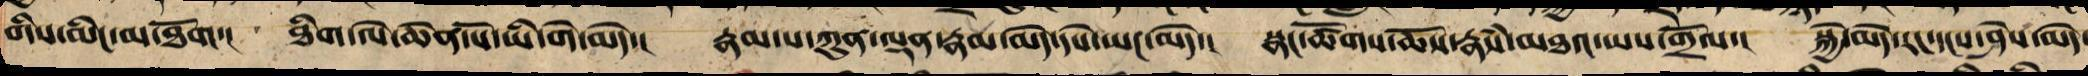གིས་མིང་མ་ཐོག་། ཐིག་ལེ་ཆེན་པོ་ཡི་གེ་མེད་། རྣམ་པ་ཀུན་ལྡན་རྣམ་མེད་དཔེ་ཡང་མེད་། སྣ་ཚོགས་ཆོས་རྣཾས་མཐའ་ཡས་གྲོལ་། སྐྱེ་མེད་རང་དངས་ཤེས་མེད་
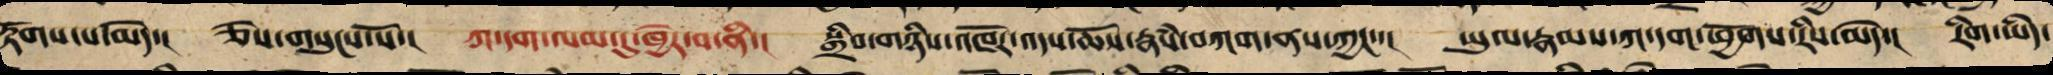རྟོགས་པ་མེད་། ཅེས་གསུངས་སོ་། ཀ་དག་ལམ་དུ་ཁྱེར་བ་ནི་། སྒྲིབ་གཉིས་འཁོར་འདས་ཆོས་རྣཾས་བཀག་ནས་ཀྱང་་། ཡུལ་རྣམས་ཀ་དག་ཕྱོགས་རིས་མེད་། རིག་ཡིད་
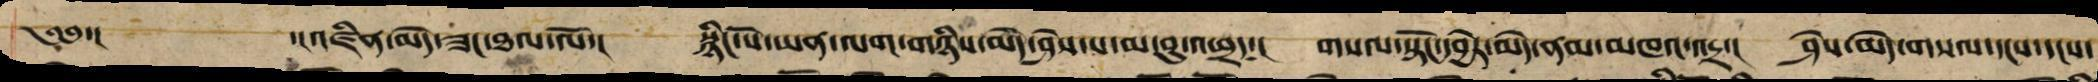༄༅་། ་།འཛིན་མེད་ཟང་ཐལ་ལོ་། སྙིང་པོ་ཡན་ལག་གཉིས་མེད་ཤེས་པ་མ་བུ་འཕྲད་། གསལ་སྟོང་དབྱེར་མེད་ནམ་མཁའ་འདྲ་། ཤེས་མེད་གསལ་དངས་དངས་
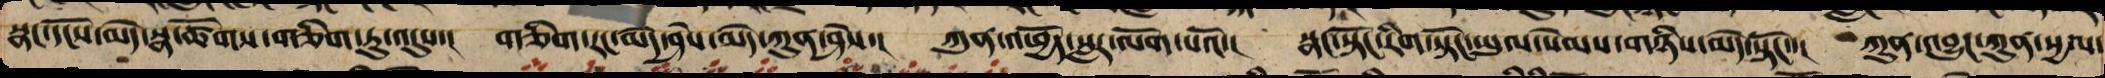སྣང་དངོས་མེད་སྣ་ཚོགས་གཅིག་ཏུ་འདུས་། གཅིག་རང་མེད་ཤེས་མེད་ཀུན་ཤེས་། ཀུན་འཕྱོད་སླར་ལག་པའོ་། སྣང་སྟོང་རིག་སྟོང་ཡུལ་སེམས་གཉིས་མེད་སྟོང་་། ཀུན་འབྱུང་ཀུན་སྱལ་
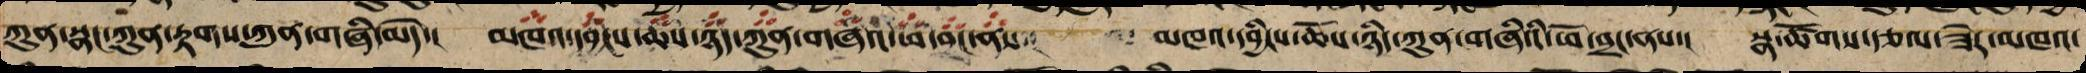ཀུན་སྣང་ཀུན་རྟགས་ཀུན་གཞི་མེད་། མཁའ་དབྱིངས་ཆོས་ཉིད་ཀུན་གཞིའི་ཕོ་བྲང་ནས་། མཁའ་དབྱིངས་ཆོས་ཉིད་ཀུན་གཞིའི་ཕོ་བྲང་ནས་། སྣ་ཚོགས་རྩལ་ཟེར་མཁའ་
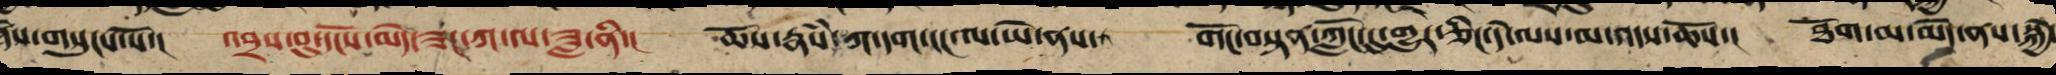ཞེས་གསུངས་སོ་། འབྲས་བུ་དངོས་མེད་ཟང་ཀ་ལ་ཟླ་ནི་། ཆོས་རྣཾས་ཀ་དག་ངང་ལ་ཡེ་ནས་ གོང་བསྟན་ཀློང་དུ་གྱུར་ཅིང་དེ་ལས་མ་འདས་ཆོས་། ཐོག་མ་མེད་ནས་སྐྱེ་
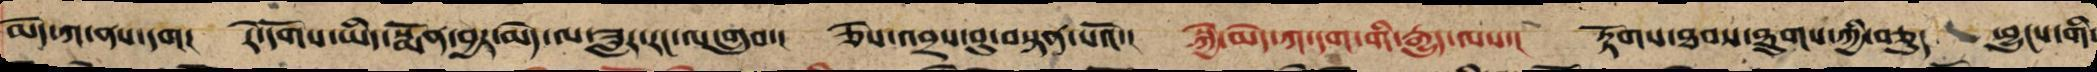མེད་ཀ་ནས་དག། རེ་དོགས་ཡིད་སྨོན་བྱར་མེད་ལ་ཟླར་རང་ལ་གྲུབ་། ཅེས་འབྲས་བུ་བསྟན་པའོ་། སྐྱེ་མེད་ཀ་དག་གི་རྒྱུད་ལས་། རྟོགས་ཐབས་ཐུགས་ཀྱི་བཅུད ཕྱུང་་གི་
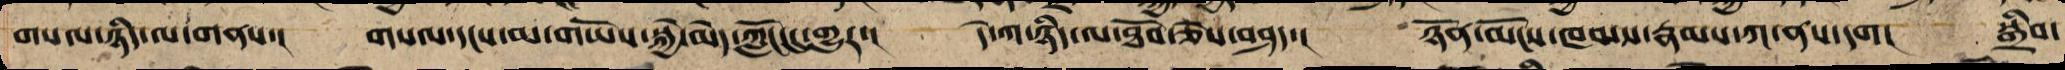གསལ་ཉིད་ལ་གནས་། གསལ་དངས་མ་གཡོས་སྐྱེ་མེད་ཀློང་དུ་གྱུར་། དེ་ཀ་ཉིད་ལ་ཐོབ་ཅེས་བཤད་། ཉོན་མོངས་ཁམས་རྣམས་ཀ་ནས་དག། སྒྲིབ་
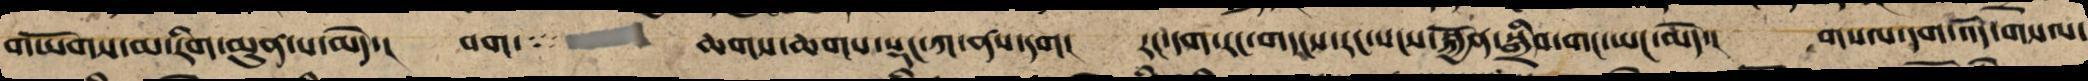གཡོགས་མ་རིག་མུན་པ་མེད་། བག་ ཆགས་ཆགས་སྡང་ཀ་ནས་དག། རང་དག་རང་གདངས་རང་སངས་སྐྱོན་སྒྲིབ་གང་ཡང་མེད་། གསལ་དག་འོད་གསལ་
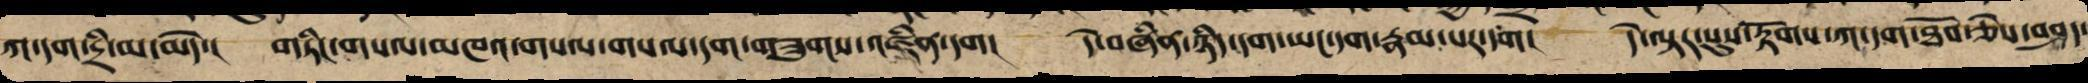ཀ་དག་དྲི་མ་མེད་། གཏིང་གསལ་ཁ་གསལ་གསལ་དག་གཟུགས་འཛིན་དག། དེ་བཞིན་ཉིད་དག་ཡང་དག་རྣམ་པར་དག། དེ་ལྟར་སུས་རྟོགས་ཀ་དག་ཐོབ་ཅེས་བཤད་
